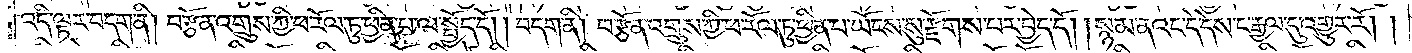འདི་ལྟར་བདག་ནི། བརྩོན་འགྲུས་ཀྱི་ཕ་རོལ་ཏུ་ཕྱིན་པ་ལ་སྤྱོད་དོ། །བདག་ནི། བརྩོན་འགྲུས་ཀྱི་ཕ་རོལ་ཏུ་ཕྱིན་པ་ཡོངས་སུ་རྫོགས་པར་བྱེད་དོ། །སྙམ་ནའང་དེ་དེས་ང་རྒྱལ་དུ་འགྱུར་རོ། །
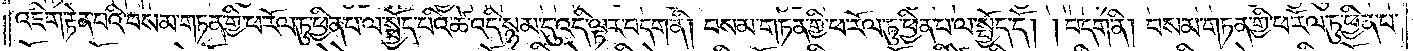འཇིག་རྟེན་པའི་བསམ་གཏན་གྱི་ཕ་རོལ་ཏུ་ཕྱིན་པ་ལ་སྤྱོད་པའི་ཚེ་འདི་སྙམ་དུ་འདི་ལྟར་བདག་ནི། བསམ་གཏན་གྱི་ཕ་རོལ་ཏུ་ཕྱིན་པ་ལ་སྤྱོད་དོ། །བདག་ནི། བསམ་གཏན་གྱི་ཕ་རོལ་ཏུ་ཕྱིན་པ་
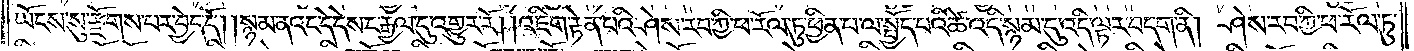ཡོངས་སུ་རྫོགས་པར་བྱེད་དོ། །སྙམ་ནའང་དེ་དེས་ང་རྒྱལ་དུ་འགྱུར་རོ། །འཇིག་རྟེན་པའི་ཤེས་རབ་ཀྱི་ཕ་རོལ་ཏུ་ཕྱིན་པ་ལ་སྤྱོད་པའི་ཚེ་འདི་སྙམ་དུ་འདི་ལྟར་བདག་ནི། ཤེས་རབ་ཀྱི་ཕ་རོལ་ཏུ་
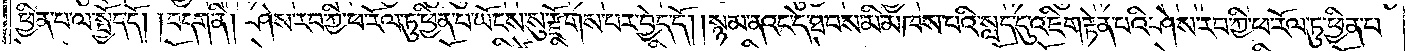ཕྱིན་པ་ལ་སྤྱོད་དོ། །བདག་ནི། ཤེས་རབ་ཀྱི་ཕ་རོལ་ཏུ་ཕྱིན་པ་ཡོངས་སུ་རྫོགས་པར་བྱེད་དོ། །སྙམ་ནའང་དེ་ཐབས་མི་མཁས་པའི་སླད་དུ་འཇིག་རྟེན་པའི་ཤེས་རབ་ཀྱི་ཕ་རོལ་ཏུ་ཕྱིན་པ་
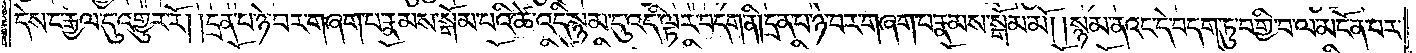དེས་ང་རྒྱལ་དུ་འགྱུར་རོ། །དྲན་པ་ཉེ་བར་གཞག་པ་རྣམས་སྒོམ་པའི་ཚེ་འདི་སྙམ་དུ་འདི་ལྟར་བདག་ནི། དྲན་པ་ཉེ་བར་གཞག་པ་རྣམས་སྒོམ་མོ། །སྙམ་ནའང་དེ་བདག་ཏུ་བགྱི་བ་ལ་མངོན་པར་
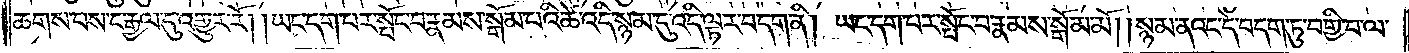ཆགས་པས་ང་རྒྱལ་དུ་འགྱུར་རོ། །ཡང་དག་པར་སྤོང་བ་རྣམས་སྒོམ་པའི་ཚེ་འདི་སྙམ་དུ་འདི་ལྟར་བདག་ནི། ཡང་དག་པར་སྤོང་བ་རྣམས་སྒོམ་མོ། །སྙམ་ནའང་དེ་བདག་ཏུ་བགྱི་བ་ལ་
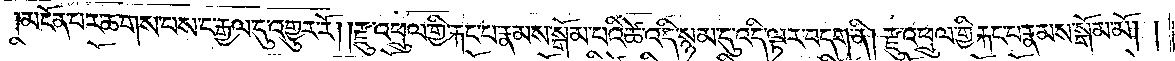མངོན་པར་ཆགས་པས་ང་རྒྱལ་དུ་འགྱུར་རོ། །རྫུ་འཕྲུལ་གྱི་རྐང་པ་རྣམས་སྒོམ་པའི་ཚེ། འདི་སྙམ་དུ་འདི་ལྟར་བདག་ནི། རྫུ་འཕྲུལ་གྱི་རྐང་པ་རྣམས་སྒོམ་མོ། །
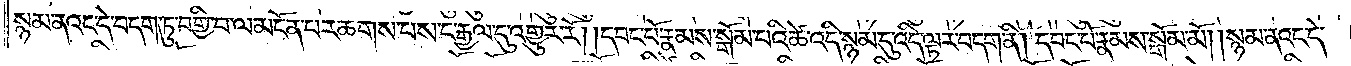སྙམ་ནའང་དེ་བདག་ཏུ་བགྱི་བ་ལ་མངོན་པར་ཆགས་པས་ང་རྒྱལ་དུ་འགྱུར་རོ། །དབང་པོ་རྣམས་སྒོམ་པའི་ཚེ་འདི་སྙམ་དུ་འདི་ལྟར་བདག་ནི། དབང་པོ་རྣམས་སྒོམ་མོ། སྙམ་ནའང་དེ་
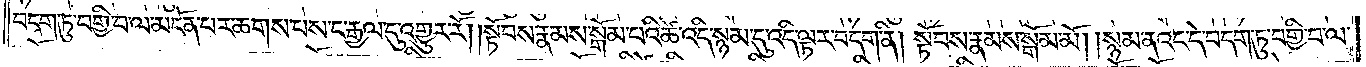བདག་ཏུ་བགྱི་བ་ལ་མངོན་པར་ཆགས་པས་ང་རྒྱལ་དུ་འགྱུར་རོ། །སྟོབས་རྣམས་སྒོམ་པའི་ཚེ་འདི་སྙམ་དུ་འདི་ལྟར་བདག་ནི། སྟོབས་རྣམས་སྒོམ་མོ། །སྙམ་ནའང་དེ་བདག་ཏུ་བགྱི་བ་ལ་
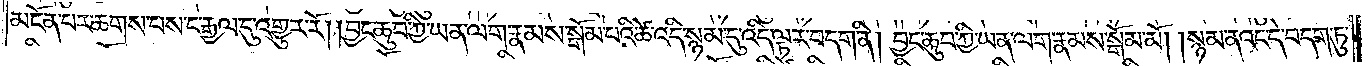མངོན་པར་ཆགས་པས་ང་རྒྱལ་དུ་འགྱུར་རོ། །བྱང་ཆུབ་ཀྱི་ཡན་ལག་རྣམས་སྒོམ་པའི་ཚེ་འདི་སྙམ་དུ་འདི་ལྟར་བདག་ནི། བྱང་ཆུབ་ཀྱི་ཡན་ལག་རྣམས་སྒོམ་མོ། །སྙམ་ནའང་དེ་བདག་ཏུ་
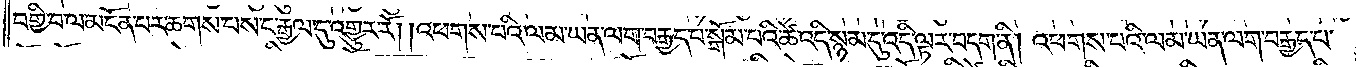བགྱི་བ་ལ་མངོན་པར་ཆགས་པས་ང་རྒྱལ་དུ་འགྱུར་རོ། །འཕགས་པའི་ལམ་ཡན་ལག་བརྒྱད་པ་སྒོམ་པའི་ཚེ་འདི་སྙམ་དུ་འདི་ལྟར་བདག་ནི། འཕགས་པའི་ལམ་ཡན་ལག་བརྒྱད་པ་
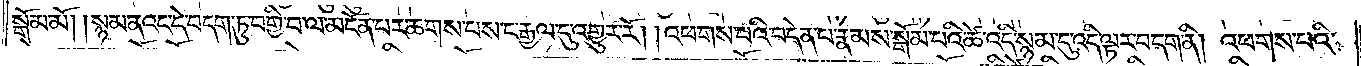སྒོམ་མོ། །སྙམ་ནའང་དེ་བདག་ཏུ་བགྱི་བ་ལ་མངོན་པར་ཆགས་པས་ང་རྒྱལ་དུ་འགྱུར་རོ། །འཕགས་པའི་བདེན་པ་རྣམས་སྒོམ་པའི་ཚེ་འདི་སྙམ་དུ་འདི་ལྟར་བདག་ནི། འཕགས་པའི་
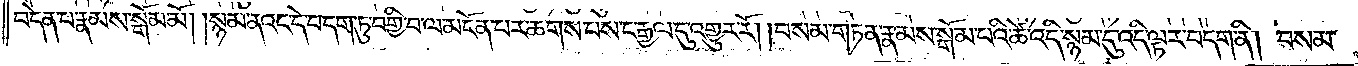བདེན་པ་རྣམས་སྒོམ་མོ། །སྙམ་ནའང་དེ་བདག་ཏུ་བགྱི་བ་ལ་མངོན་པར་ཆགས་པས་ང་རྒྱལ་དུ་འགྱུར་རོ། །བསམ་གཏན་རྣམས་སྒོམ་པའི་ཚེ་འདི་སྙམ་དུ་འདི་ལྟར་བདག་ནི། བསམ་
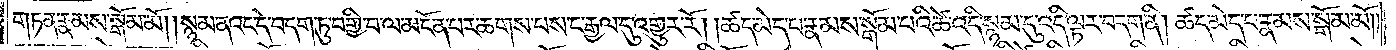གཏན་རྣམས་སྒོམ་མོ། །སྙམ་ནའང་དེ་བདག་ཏུ་བགྱི་བ་ལ་མངོན་པར་ཆགས་པས་ང་རྒྱལ་དུ་འགྱུར་རོ། །ཚད་མེད་པ་རྣམས་སྒོམ་པའི་ཚེ་འདི་སྙམ་དུ་འདི་ལྟར་བདག་ནི། ཚད་མེད་པ་རྣམས་སྒོམ་མོ།
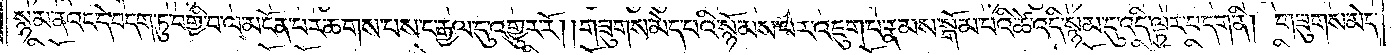སྙམ་ནའང་དེ་བདག་ཏུ་བགྱི་བ་ལ་མངོན་པར་ཆགས་པས་ང་རྒྱལ་དུ་འགྱུར་རོ། །གཟུགས་མེད་པའི་སྙོམས་པར་འཇུག་པ་རྣམས་སྒོམ་པའི་ཚེ་འདི་སྙམ་དུ་འདི་ལྟར་བདག་ནི། གཟུགས་མེད་
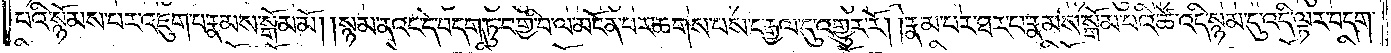པའི་སྙོམས་པར་འཇུག་པ་རྣམས་སྒོམ་མོ། །སྙམ་ནའང་དེ་བདག་ཏུ་བགྱི་བ་ལ་མངོན་པར་ཆགས་པས་ང་རྒྱལ་དུ་འགྱུར་རོ། །རྣམ་པར་ཐར་པ་རྣམས་སྒོམ་པའི་ཚེ་འདི་སྙམ་དུ་འདི་ལྟར་བདག་
